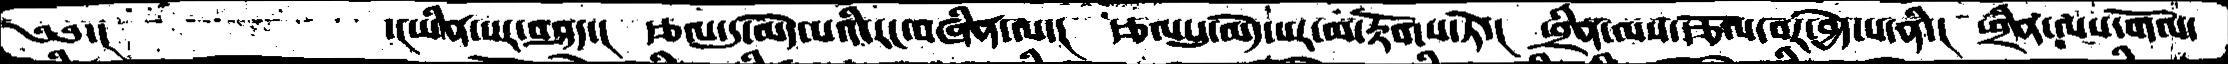༄༅་།          ་།ཡིན་པར་བཤད་།   རྩལ་དུ་མེད་པའི་རང་བཞིན་ལ་།  རྩལ་དུ་མེད་པར་མ་རྟོགས་ཏེ་།  ཕྲིན་ལས་རྩོལ་བར་བྱེད་པ་ནི་།  ཕྲིན་ལས་གོལ་
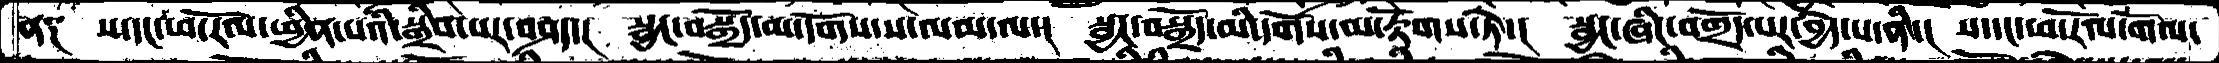ན༑  ས་དང་ཕ་རོལ་ཕྱིན་པའི་སྒྲིབ་པར་བཤད་།  སྦྱང་བསྒྲོད་མ་དགོས་ས་ལམ་ལ་།  སྦྱང་བསྒྲོད་མི་དགོས་མ་རྟོགས་ཏེ་།  སྦྱང་ཞིང་བགྲོད་པར་བྱེད་པ་ནི་།  ས་དང་ཕ་རོལ་གོལ་
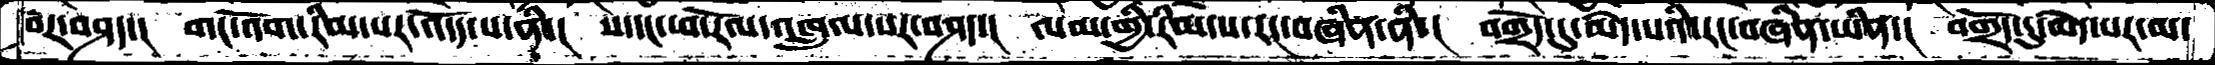བར་བཤད་།  གང་འོག་རིམ་པར་འདོད་པ་ནི་།  ས་དང་ཕ་རོལ་འཁྲུལ་པར་བཤད་།  ལམ་གྱི་རིམ་པ་རང་བཞིན་ནི་།  བགྲོད་དུ་མེད་པའི་རང་བཞིན་ཡིན་།  བགྲོད་དུ་མེད་པར་མ་
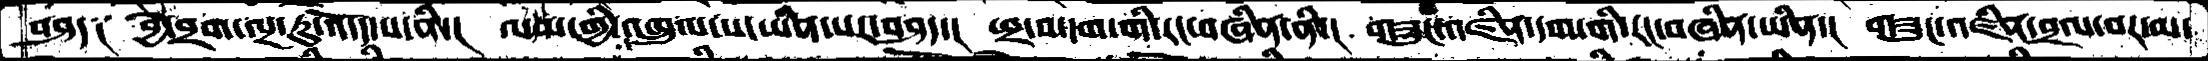བཤད༑  བྱེ་བྲག་ལྔ་རུ་འདོད་པ་ནི་།  ལམ་གྱི་འཁྲུལ་པ་ཡིན་པར་བཤད་།  ཕྲ་བ་དག་གི་རང་བཞིན་ནི་།  གཟུང་འཛིན་དག་གི་རང་བཞིན་ཡིན་།  གཟུང་འཛིན་བྲལ་བར་མ་
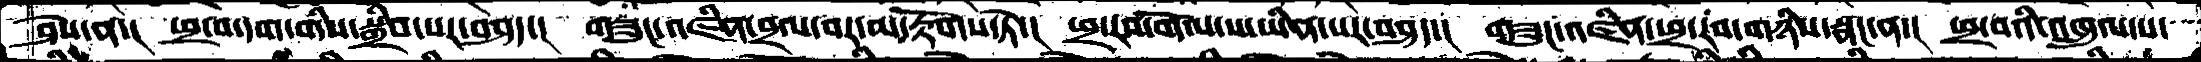ཤེས་ན་།  ཕྲ་བ་དག་གིས་སྒྲིབ་པར་བཤད་།  གཟུང་འཛིན་བྲལ་བར་མ་རྟོགས་ཏེ་།  ཕྲ་རབ་གོལ་ས་ཡིན་པར་བཤད་།  གཟུང་འཛིན་ཕྲ་རབ་གཉིས་སྣང་ན་།  ཕྲ་བའི་འཁྲུལ་པ་
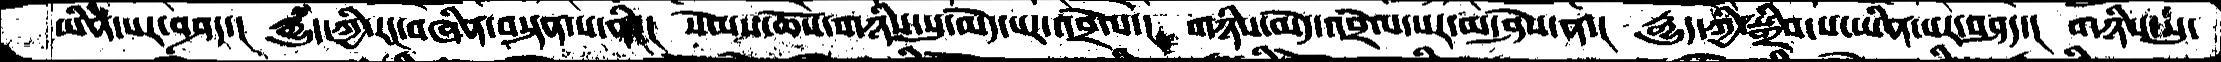ཡིན་པར་བཤད་།  རྒྱུད་ཀྱི་རང་བཞིན་བསྟན་པ་ནི་།  སེམས་ཆོས་གཉིས་སུ་མེད་པར་འབྲེལ་།  གཉིས་མེད་འབྲེལ་པར་མ་ཤེས་ན་།  རྒྱུད་ཀྱི་སྒྲིབ་པ་ཡིན་པར་བཤད་།  གཉིས་སུ་
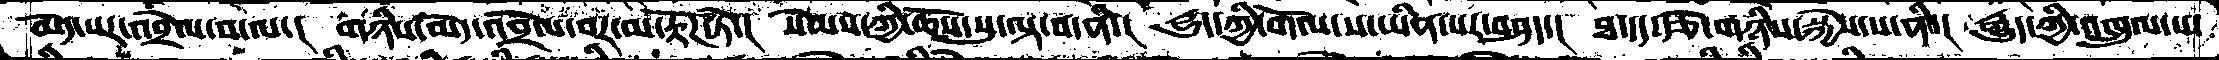མེད་པར་འབྲེལ་བ་ལ་།  གཉིས་མེད་འབྲེལ་བར་མ་རྟོཌ་ཏེ་།  སེམས་ཀྱི་ཆོས་སུ་ལྟ་བ་ནི་།  དྱུད་ཀྱི་གོལ་ས་ཡིན་པར་བཤད་།  ཐ་དད་རྩེ་གཉིས་སྐྱེས་པ་ནི་།  རྒྱུད་ཀྱི་འཁྲུལ་པ་
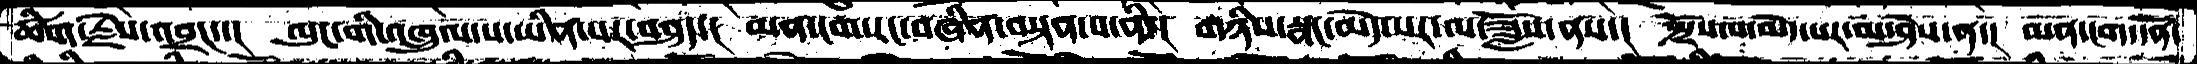ཚིག་རྗེས་འབྲང་་།   ལུང་གི་འཁྲུལ་པ་ཡིན་པར་བཤད་།  མན་ངག་རང་བཞིན་བསྟན་པ་ནི་།  གཉིས་སྣང་མེད་པར་ལ་ཟློས་ནས་།  སྤྲོས་པ་མེད་པར་མ་ཤེས་ན་།  མན་ངག་དོན་
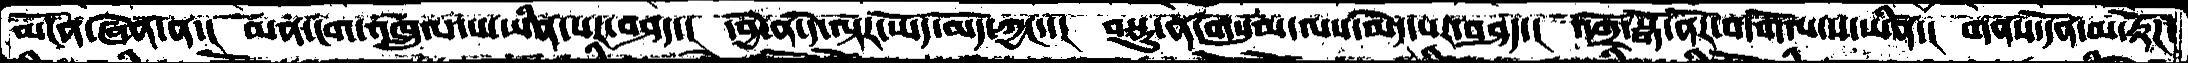མངོན་ཞེན་ན་།  མན་ངག་འཁྲུལ་པ་ཡིན་པར་བཤད་།  དབྱེ་ན་དེ་ལྟར་ཡོད་མེད་ཀྱང་་།  བསྡུ་ན་གསུམ་ལས་མེད་པར་བཤད་།  འགྲོ་སྒོ་ནོར་བ་གོལ་ས་ཡིན་།  གནས་དོན་མ་རྟོཌ་
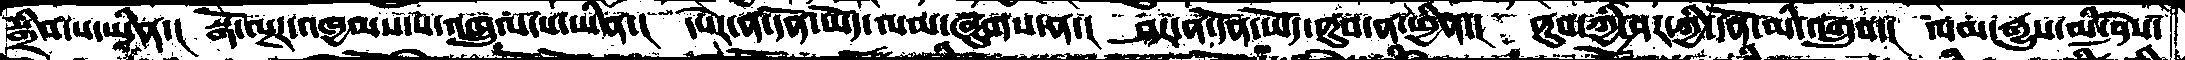སྒྲིབ་པ་ཡིན་།  སྒོ་ལྔར་འཁྱམས་ས་འཁྲུལ་པ་ཡིན་།  དཔེར་ན་དོན་ཡོད་ལམ་ཞུགས་ན་།  ཤར་ན་དོན་ཡོད་ནུབ་ན་ཕྱིན་།  ནུབ་ཀྱི་ཤར་གྱི་དོན་མི་འགྲུབ་།  ལམ་རྒྱུས་མི་ཤེས་
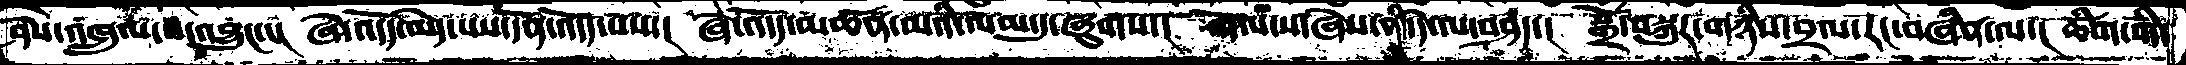ཤེས་འཁྲུལ་བ་འབྱུང་་།  ཞེ་འདོད་མེད་པས་དོན་འདོད་པས་།  ཞེ་འདོད་མཚན་མའི་ལམ་དུ་ཞུགས་།  གོལ་པ་ཞེས་ནི་དེ་ལ་བཤད་།  སྒྲོ་བསྐུར་གཉིས་བྲལ་རང་བཞིན་ལ་།  ཚིག་གི་
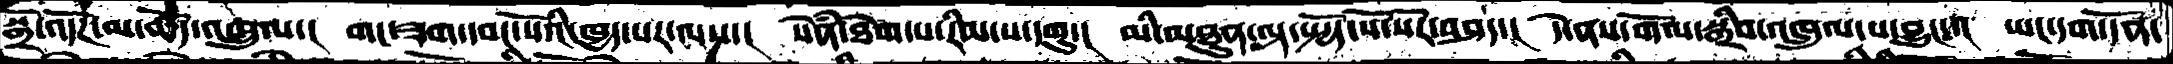སྒྲོ་འདོཌ་མ་ཆོད་འཁྲུལ་།  གང་ཟག་དབང་པོའི་ཁྱད་པར་ལས་།   སེཾན་ཐེག་པ་རིམ་པ་དགུ་།  མི་མཐུན་ལྟ་སྤྱོད་སོ་སོར་བཤད་།  དེ་ནས་གོལ་སྒྲིབ་འཁྲུལ་པ་བྱུང་་།  ཡང་དག་དོན་
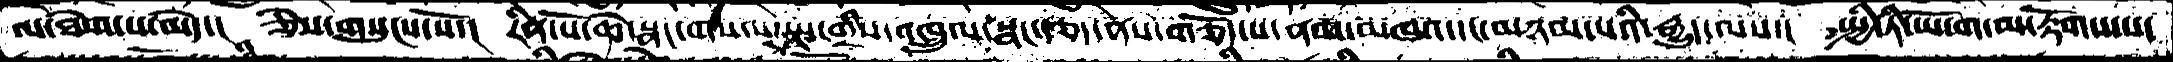ལ་ཐེག་པ་མེད་།   ཅེས་གསུངས་སོ་།  རིན་པོ་ཆེ་སྣང་གསལ་སྤུ་གྲིས་འཁྲུལ་སྣང་རྩད་ནས་གཅོད་པ་ནམ་མཁའ་དང་མཉམ་པའི་རྒྱུད་ལས་།  སྤྱི་ཏི་ཡོ་ག་མ་རྟོགས་པ་
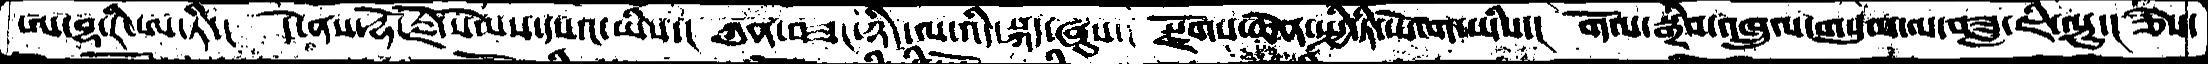ཨ་བྷ་རི་ཨ་ཏི་།  དེ་ནས་རྡོ་རྗེ་སེམས་དཔའ་ཡིས་།  ཀུན་བཟང་ཉིད་ལ་འདི་སྐད་ཞུས་།  སྫོགས་ཆེན་སྤྱི་ཏི་ཡོ་ག་ཡིས་།  གོལ་སྒྲིབ་འཁྲུལ་གསུམ་ལ་བཟླ་ཇི་ལྟུ་།  ཅེས་
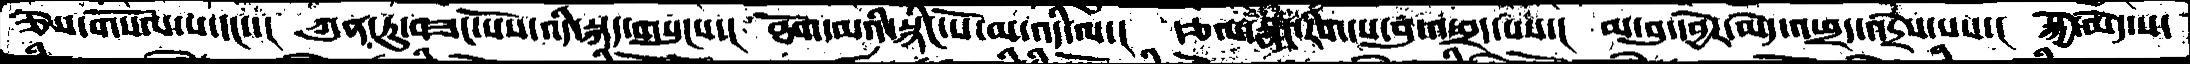ཅེས་གསོལ་པ་དང་་།  ཀུན་ཏུ་བཟང་པོས་འདི་སྐད་གསུངས་།  ཐོག་མའི་སྙིང་པོ་མ་འདི་ལ་།  རྩལ་སྣང་རིག་པ་བུ་འཕྲད་པས་།  མ་བུ་དབྱེར་མེད་འཕྲད་འདྲེས་པས་།  སྐྱོ་མེད་པ་
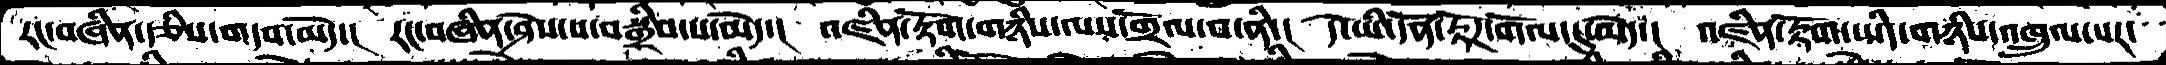རང་བཞིན་རྩིས་གདབ་མེད་།  རང་བཞིན་ཤེས་པ་བསྒྲིབ་པ་མེད་།  འཛིན་རྟོག་གཉིས་ལས་གྲོལ་བ་ནི་།  དེ་ཡི་དོན་རྟོཌ་གོལ་དུ་མེད་།  འཛིན་རྟོག་ཡིད་གཉིས་འཁྲུལ་པར་
